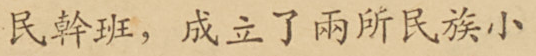民幹班，成立了兩所民族小
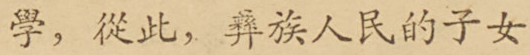學，從此，彝族人民的子女
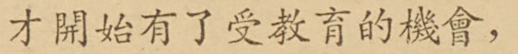才開始有了受教育的機會，
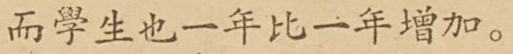而學生也一年比一年增加。
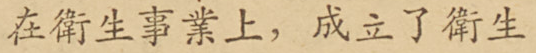在衛生事業上，成立了衛生
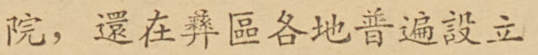院，還在彝區各地普遍設立
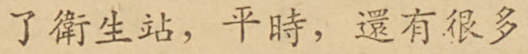了衛生站，平時，還有很多
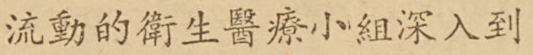流動的衛生醫療小組深入到
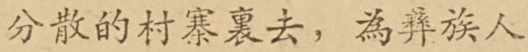分散的村寨裏去，為彝族人
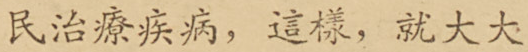民治療疾病，這樣，就大大
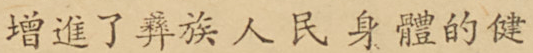增進了彝族人民身體的健
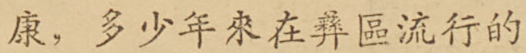康，多少年來在彝區流行的
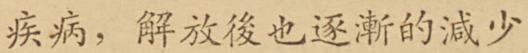疾病，解放後也逐漸的減少
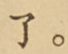了。
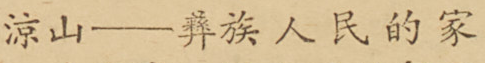涼山——彝族人民的家
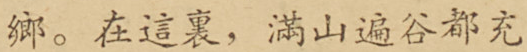鄉。在這裏，滿山遍谷都充
